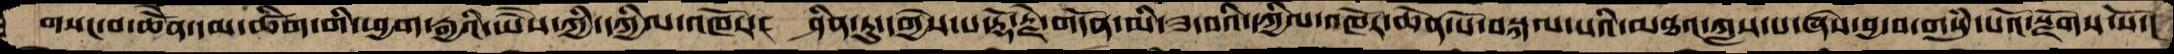གསང་བ་ཆེནོ་དམ་ཚིག་གི་ཕྱག་རྒྱའི་ཡཻས་ཀྱི་དཀྱིལ་འཁོར་།   ཤིན་ཏུ་དགྱེས་པ་རྡོ་རྗེ་གདོན་མི་ཟ་བའི་དཀྱིལ་འཁོར་ཆེན་པོ་བསྐལ་པའི་མཐའ་ཀླས་པ་ཞེས་བྱ་བ་གསུཾ་པའོ་སྫོགས་སོ་།
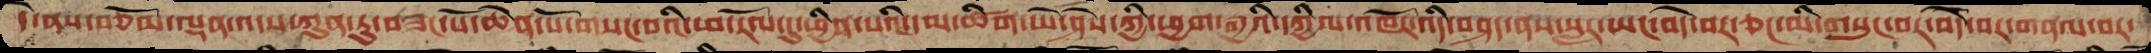དེ་ནས་བཅོམ་ལྡན་འདས་ཀུན་ཏུ་བཟང་པོ་ཆེན་པོ་གསང་བའི་ཕ་རོལ་དུ་ཕྱིན་པའི་དམ་ཚིག་ཡེ་ཤེས་ཀྱི་ཕྱག་རྒྱའི་དཀྱིལ་འཁོར་འདི་བཤད་ནས་སླར་ཡང་བདེ་བར་ཅང་མི་གསུང་བར་བདེ་བར་གནལ་བར་
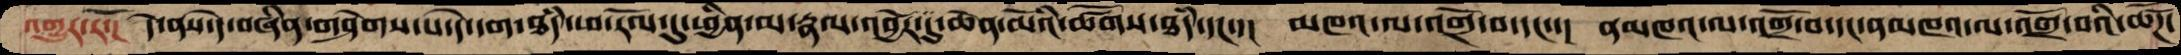འགྱུར་རོ་།   དེ་ནས་དེ་བཞིན་གཤེགས་པ་དེ་དག་ཐཾད་ཕ་རོལ་དུ་ཕྱིན་མ་རྣལ་འབྱོར་དུ་ཆེན་མོའི་ཚོགས་ཐཾད་དང་་།  མཁའ་ལ་འགྲོ་བ་དང་་།  ནམཁའ་ལ་འགྲོ་བ་དང་ནམཁའ་ལ་འགྲོ་བའི་ཚོཌ་
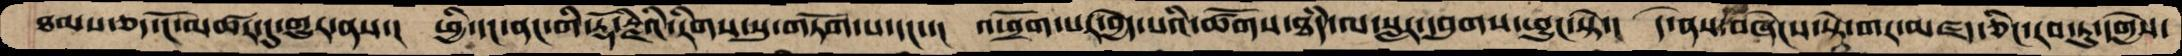ཐམས་ཅད་ངོ་མཚར་དུ་གྱུར་ནས་།  ཕྱི་དང་ནང་གི་རྡོ་རྗེའི་རིགས་སུ་གཏོག་པ་དང་་།  འཕྲོག་པར་བྱེད་པའི་ཚོགས་ཐཾད་ལ་སླར་དབུགས་ཕྱུང་སྟེ་།  དེ་ནས་བཞེངས་སྟེ་གར་མཛད་ཅིང་རབ་ཏུ་དགྱེས་
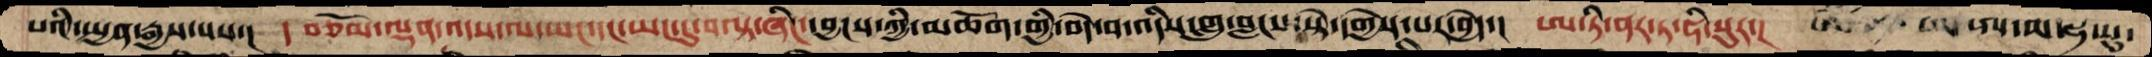པའི་སྤྱན་རྒྱས་པས་།  །བཅོམ་ལྡན་འདས་ལ་ཡང་དང་ཡང་དུ་བལྟ་ཞིང་དབྱངས་ཀྱི་མཆོག་གྱི་བདེ་བ་འདིས་གླུ་བླངས་ཏེ་དགྱེས་པར་བྱེད་། ཨ་ཏི་ནར་ཏ་ཧི་སུར་། ཨོཾ་བཛྲ་ཨ་ཨ་མ་ཧ་སུ་
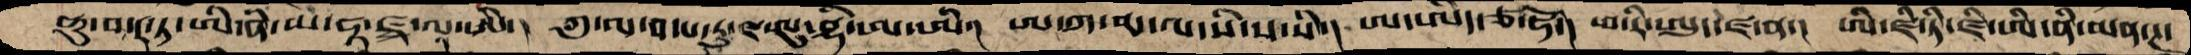ཧུ་བ་ར་ཏ་ཨི་ནི་མ་ཧཱ་ཛྭ་ལཱ་ཨི་།  ཀུ་ལ་བ་ས་རུ་ཛ་ལུ་བྷི་ཨ་ཨི་།  ཨ་ཀ་མ་ལ་སི་ས་སི་། ཨ་ཨིད་ཙ་ཧོ་།  ཕ་རི་ཨུད་ཛ་ན་།  ཨི་ཛི་ཏི་ཛི་ཨི་ནི་མན་ཊ་
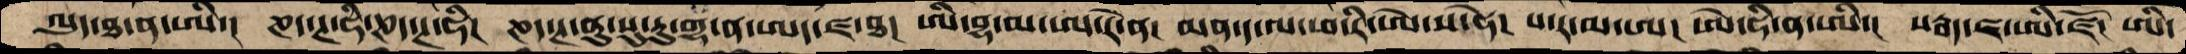ལུད་ཐ་ན་ཨི་།  ཎད་ཊ་ཧི་ཎད་ཊ་ཧི།  ཎད་ཊ་ནུ་སུ་རུ་གྷ་ན་ཨད་ཛ་ཐ།  ཨི་བྷ་མ་ཨ་རེ་ན།  མན་ད་ལ་ཕ་རི་ཨེ་ས་ཧེ།  ས་ར་མ་ཨ།  ཨེ་ཧི་ན་ཨི་།  སརྦད་ཛ་ཨི་ཛོ།  ཨི་
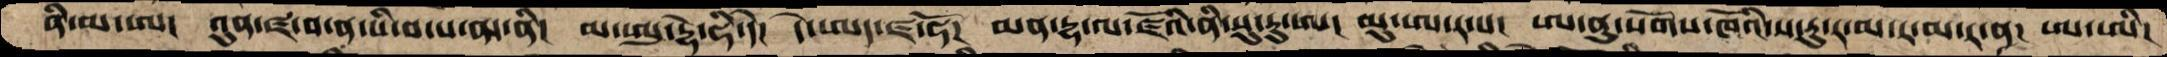ནི་མ་ཨ།  འུན་ཛ་བ་ན་སི་བ་ས་ནད་ནི།  མ་ཨུར་དྷེ་ཧི་དེ།  དེ་ཨད་ཛ་ཧོ།  མན་དྷ་ལ་ཛོའི་ནི་སུ་རུ་ཨ།  མུ་ཨ་ར་ས།  ཨ་ནུ་སོགས་ཁོའི་ས་རུ་ར་མ་ར་མ་ར་ན།  ཨ་ཨི།
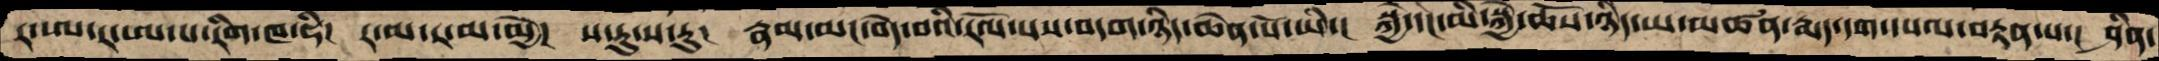ར་ཨ་ར་ཨ་པ་རིག་ཁ་ཧི།  ར་ལ་ཏ་མ་མྱེ།  ས་རུ་ས་རུ།  རྣམ་མང་བདེ་བའི་རོལ་པས་བདག་ཉིད་ཆེན་པོ་ཡི་།  སྐྱེ་དང་མི་སྐྱེ་ཆོས་ཉིད་ཡ་མཚན་རྨད་དག་དཔལ་བརྟན་པ་།  ཤིན་
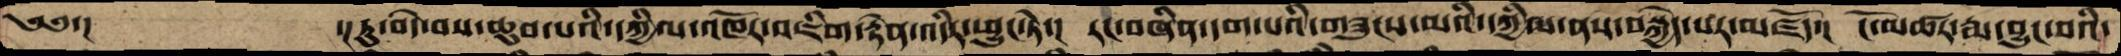༄༅་།         ་།ཏུ་བདེ་བས་ཆུབ་པའི་དཀྱིལ་འཁོར་འཇིག་རྟེན་འདིར་ཕྱུང་ཏེ་།   རང་བཞིན་དག་པའི་གཟུངས་མའི་དཀྱིལ་ནས་བསྐྱེད་པར་མཛོད་།  ངོ་མཚར་རྨ་བྱུང་བའི་
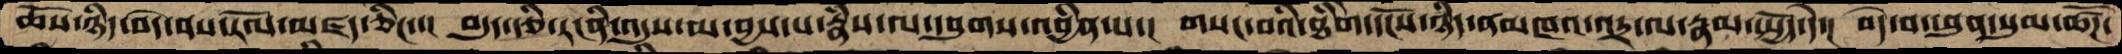ཆོས་ཉིད་བདེ་ནས་རོལ་མཛད་ཅིང་་།  བདུད་རྩི་རངིན་འདུས་མ་བྱས་པ་རྣཾས་ལ་དབུགས་འབྱིན་པ་།  གསང་བའི་ཐིགེ་དངོས་ཉིད་ནམཁའ་འདྲ་ལ་རྣམ་སྤྱོད་དེ་།  བདེ་བ་ཕུན་སུམ་ཚོཌ་
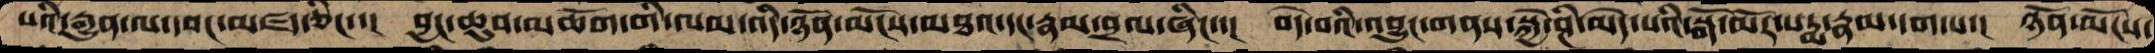པའི་རྒྱུན་ལ་དབང་མཛད་ཅིང་་།  བྱང་ཆུབ་མཆོག་གི་ལམ་འདི་ཉོན་མོངས་མཐའ་དང་རྣམ་བྲལ་ཞིང་་།  བདེ་བའི་འབྱུང་གནས་སྐྱེ་ཤི་མེད་པའི་སྒོ་མོར་པདྨ་རྣམ་དག་པ་།  ཉོན་མོངས་
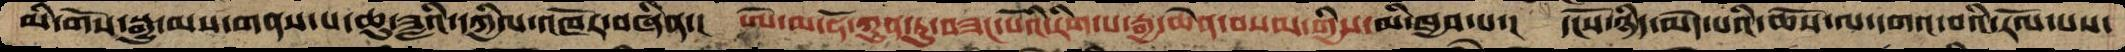མི་གོས་སྒྱུ་མས་གནས་པ་ཆུ་ཟླའི་དཀྱིལ་འཁོར་བཞིན་།   ཨེ་མ་ཧོ་ཀུན་ཏུ་བཟང་པོའི་རིག་པ་རྒྱ་ཆེན་བསམ་གྱིས་མི་ཁྱབ་པ་།  དངོས་ཉིད་མེད་པའི་ཆོས་ལ་དགའ་བའི་རོལ་པས་
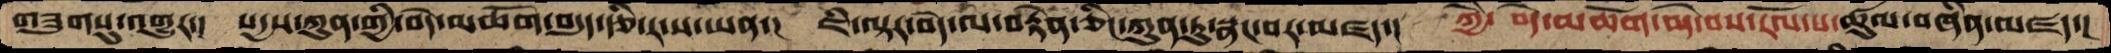གཟུགསུ་འགྱུར་།  སདྱས་ཀུན་གྱི་བདེ་མཆོག་བདུད་རྩི་ར་ས་ཡན་།  ཇི་ལྟར་བདེ་ལ་བརྟེན་ཅིང་ཀུན་ཏུ་སྣང་བར་མཛད།  ཀྱཻ་  བདེ་མཆོག་བདེ་བས་རོལ་པ་ཚུལ་བཞིན་མཛད་།
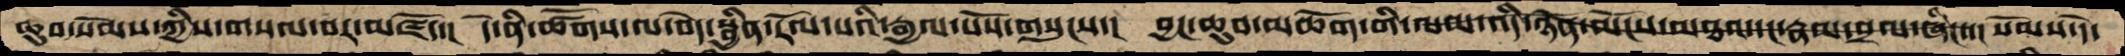ཆུབ་སེམས་ཀྱིས་གསལ་བར་མཛོད་།  དེ་ནས་ཚོགས་ལ་བདེ་སྦྱིན་རོལ་པའི་རྒྱལ་པོས་གསུངས་།  བྱང་ཆུབ་མཆོག་གི་ལམ་འདི་ཉོན་མོངས་མཐའ་དང་རྣམ་བྲལ་ཞིང་་།  སེམས་དེ་
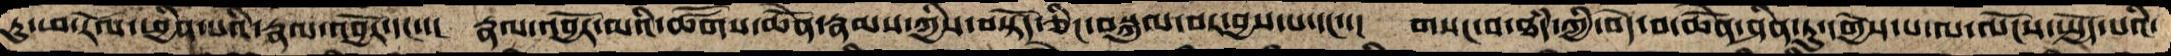ཏུ་ཕ་རོལ་ཕྱིན་པའི་རྣལ་འབྱོར་དང་་།   རྣལ་འབྱོར་མའི་ཚོགས་ཆེནོ་རྣམས་ཀྱིས་བསྟོད་ཅིང་བསྐུལ་བར་བྱས་པ་དང་་།  གསང་བ་ཐཾད་ཀྱི་བདེ་བ་ཆེནོ་ཤིན་ཏུ་དགྱེས་པ་ལ་ལོངས་སྤྱོད་པའི་
